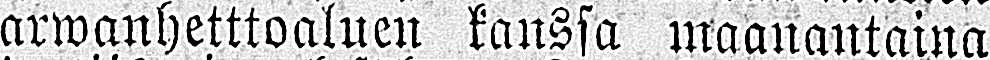arwanheittoaluen kanssa maanantaina
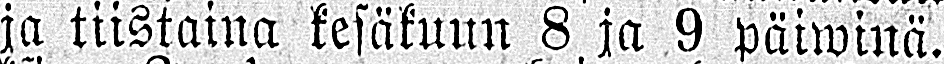ja tiistaina kesäkuun 8 ja 9 päiwinä.
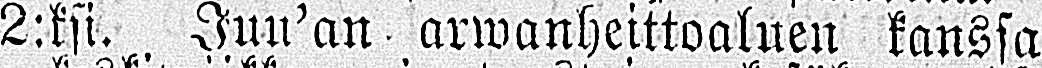2:ksi. Juu'an arwanheittoaluen kanssa
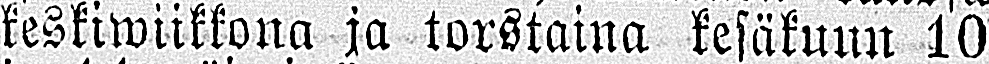keskiwiikkona ja torstaina kesäkuun 10
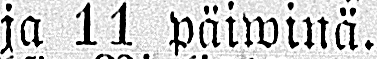ja 11 päiwinä.
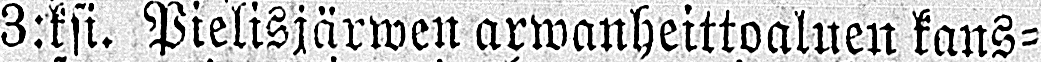3:ksi. Pielisjärwen arwanheittoaluen kans-
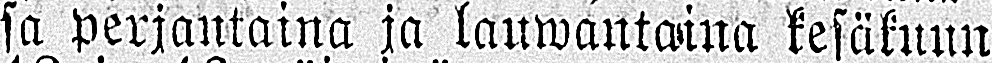sa perjantaina ja lauwantaina kesäkuun
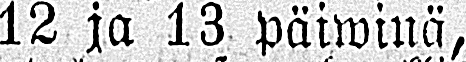12 ja 13 päiwinä,
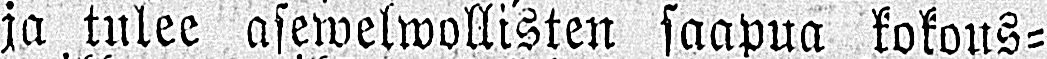ja tulee asewelwollisten saapua kokous-
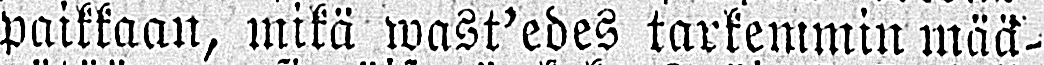paikkaan, mikä wast'edes tarkemmin mää-
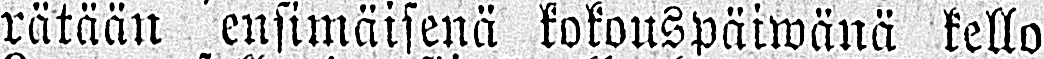rätään ensimäisenä kokouspäiwänä kello
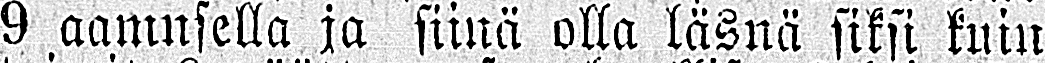9 aamnsella ja siinä olla läsnä siksi kuin
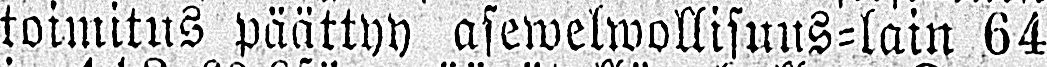toimitus päättyy asewelwollisuus-lain 64
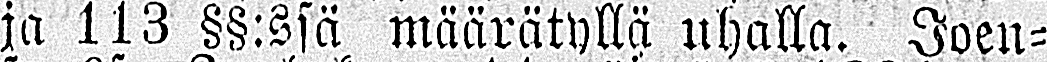ja 113 §§:ssä määrätyllä uhalla. Joen-
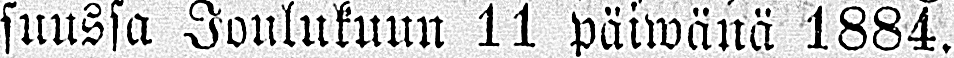suussa Joulukuun 11 päiwänä 1884.
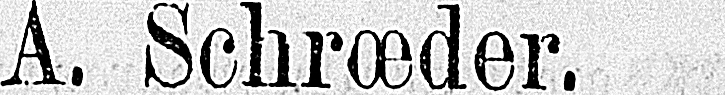A. Schrœder.
